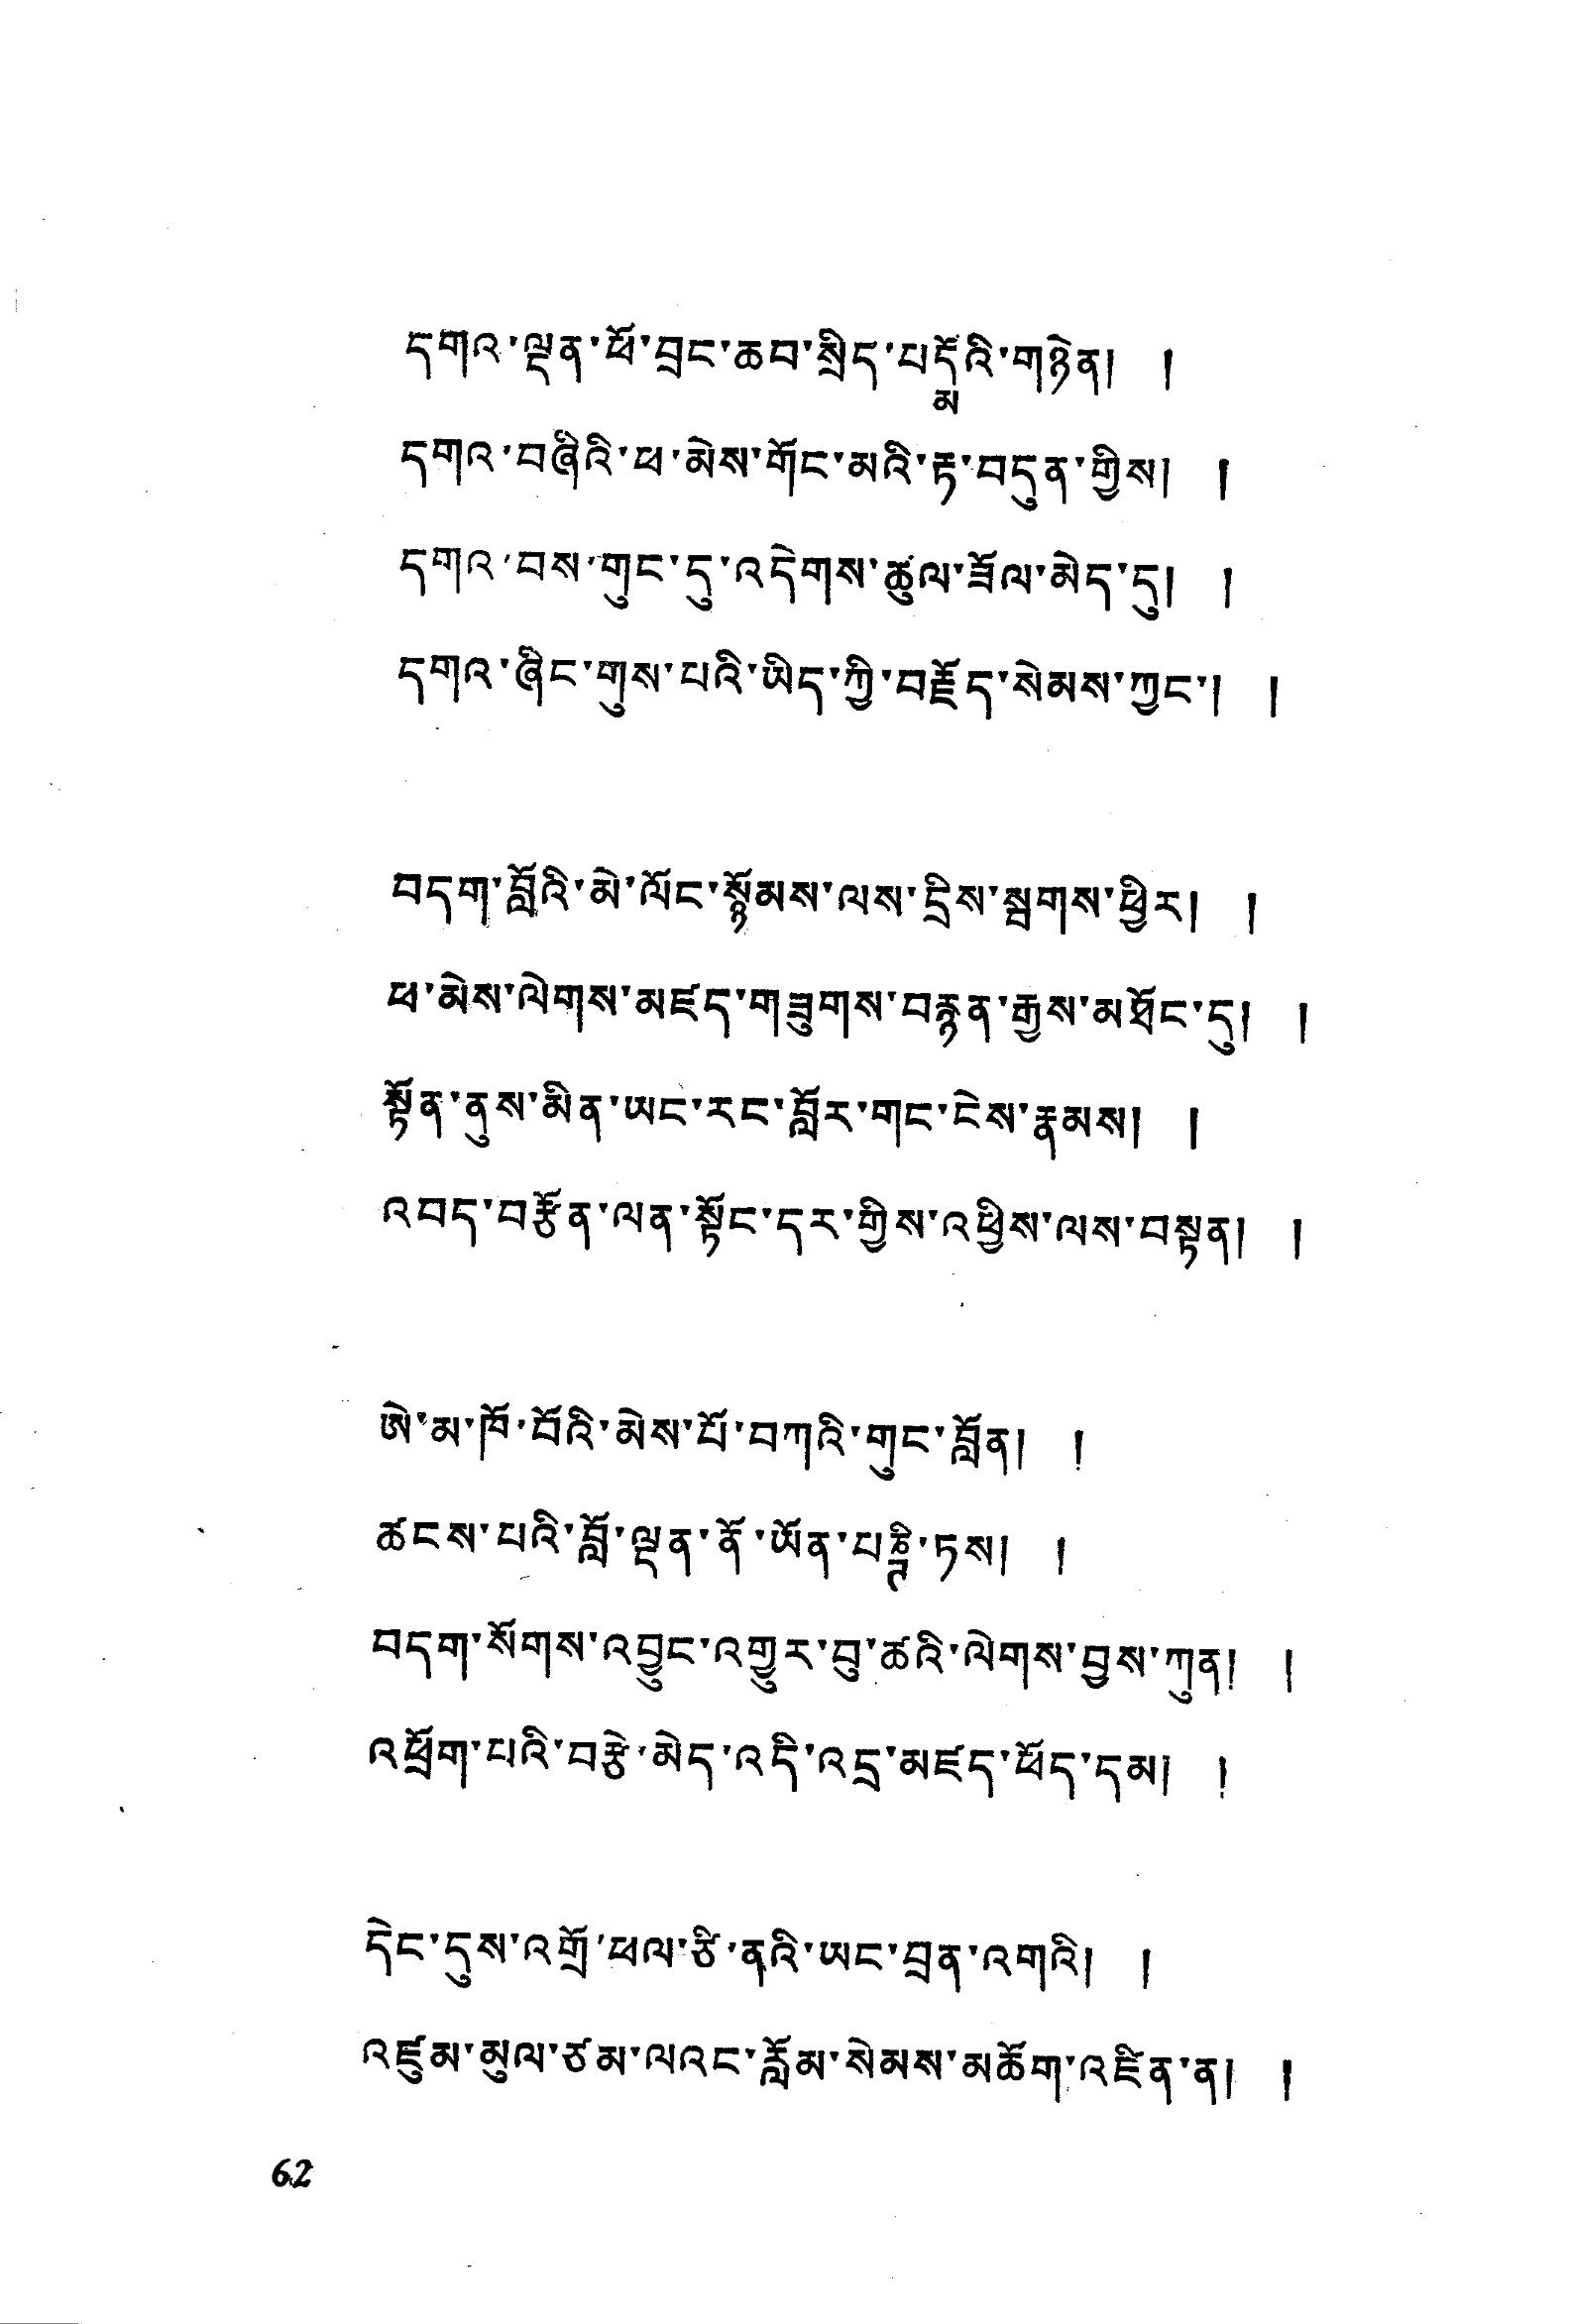དགའ་ལྡན་ཕོ་བྲང་ཆབ་སྲིད་པདྨོའི་གཉེན། །
དགའ་བཞིའི་ཕ་མེས་གོང་མའི་རྟ་བདུན་གྱིས། །
དགའ་བས་གུང་དུ་འདེགས་ཚུལ་ཟོལ་མེད་དུ། །
དགའ་ཞིང་གུས་པའི་ཡིད་ཀྱི་བརྗོད་སེམས་ཀྱང་། །
བདག་བློའི་མེ་ལོང་སྙོམས་ལས་དྲིས་སྦགས་ཕྱིར། །
ཕ་མེས་ལེགས་མཛད་གཟུགས་བརྙན་རྒྱས་མཐོང་དུ། །
སྟོན་ནུས་མིན་ཡང་རང་བློར་གང་ངེས་རྣམས། །
འབད་བརྩོན་ལན་སྟོང་དར་གྱིས་འཕྱིས་ལས་བསྟན། །
ཨེ་མ་ཁོ་བོའི་མེས་པོ་བཀའི་གུང་བློན། །
ཚངས་པའི་བློ་ལྡན་ནོ་ཡོན་པཎྚི་ཏས། །
བདག་སོགས་འབྱུང་འགྱུར་བུ་ཚའི་ལེགས་བྱས་ཀུན། །
འཕྲོག་པའི་བརྩེ་མེད་འདི་འདྲ་མཛད་ཕོད་དམ། །
དེང་དུས་འགྲོ་ཕལ་ཙི་ནའི་ཡང་བྲན་འགའི། །
འཛུམ་མུལ་ཙམ་ལའང་རློམ་སེམས་མཆོག་འཛིན་ན། །
62
